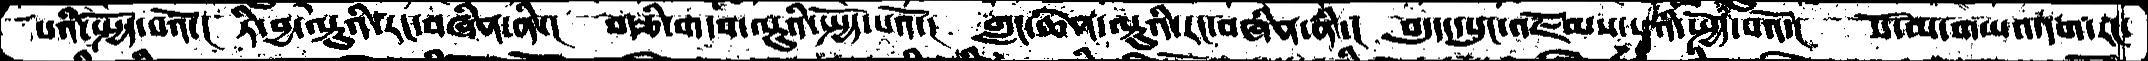པའི་སྤྱོད་པའོ་།  ཏི་བྱ་ལྟུའི་རང་བཞིན་ནི་།  བརྩི་གདབ་ལྟུའི་སྤྱོད་པའོ་།  གླང་ཆེན་ལྟུའི་རང་བཞིན་ནི་།  བདུད་དཔུང་འཇོམས་པའི་སྤྱོད་པའོ་།  སོ་མ་གཡའ་དག་རང་
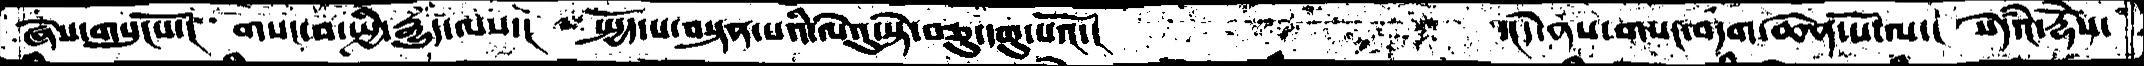ཞེས་གསུངསོ་།   གསང་བ་སྤྱི་རྒྱུད་ལས་།  སྤྱོད་པ་བསྟན་པའི་ལེའུ་སྟེ་བཅུ་དགུ་པའོ་།         ་།དེ་ནས་གསང་བདག་ཆེན་པོ་ལ་།  སེདའཾ་རྡོེས་
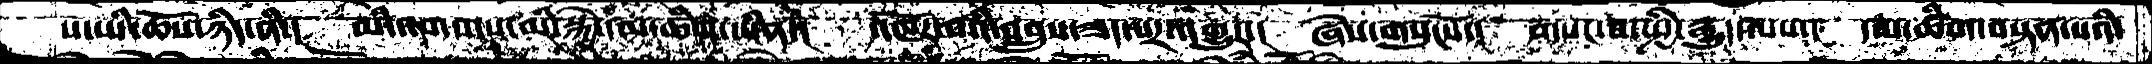པ་ཡི་ཆོས་ཉིད་ནི་། མི་འགགས་མི་སྐྱེ་དམ་ཚིག་ཡིན་། འཁོར་བའི་འབྲུས་ཟད་པར་འགྱུར་།  ཞེས་གསུངསོ་། གསང་བ་སྤྱི་རྒྱུད་ལས་། དམ་ཚིག་བསྟན་པའི་
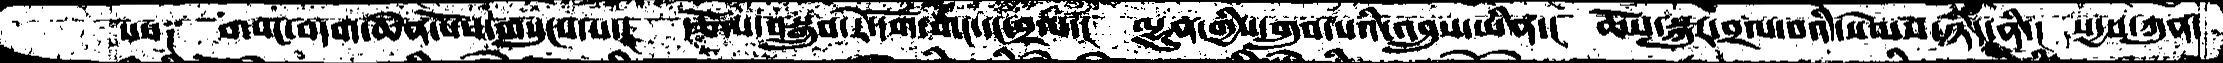པས༑   གསང་བདག་ཆེན་པོས་གསུངས་པ་།  རྩོལ་བསྒྲུབ་རེ་དོག་གང་དང་བྲལ་།  ལྷུན་གྱིས་གྲུབ་པའི་འབྲུས་ཡིན་། ཆོས་སྐུར་བྲལ་བའི་སེམས་ཉིད་ནི་།  སདྱས་ཀུན་
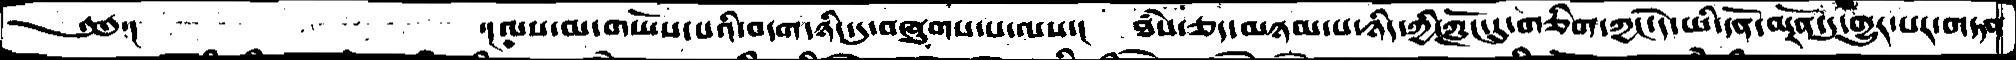༄༅་།       ་།ལས་མ་གཡོས་པའི་བདག་ཉིད་དུ་བཞུགས་པ་ལས་།  ཐཾས་ཅད་མཉམ་པ་ཉིད་ཀྱི་ཀློང་དུ་གཅིག་ཀྱང་དེ་ཡི་དོན་མངོན་དུ་གྱུར་པར་གཏན་
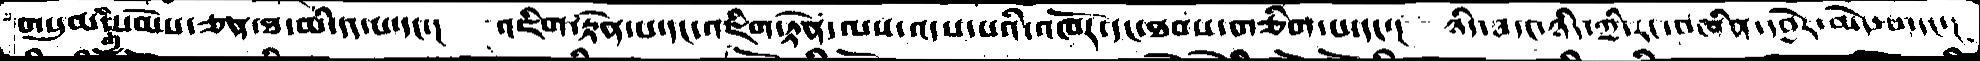གསུམ་གྱི་སེམས་ཅན་ཐ་མི་དད་པ་དང་།  འཇིག་རྟེན་པ་དང་འཇིག་རྟེན་ལས་འདས་པའི་འཁོར་དང་ཐབས་གཅིག་པ་དང་།  ཉིད་ཐ་ང་ཉིད་ཀྱི་རང་བཞིན་དབྱེར་མེད་པ་དང་།
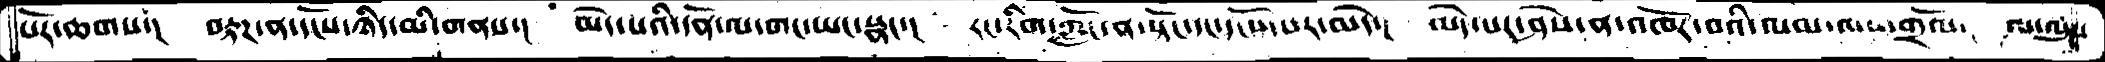པོར་ཆགས་།  བརྟཌ་ན་དངོས་ཉིད་མི་གནས་།  མེད་པའི་དོན་ལ་གང་ཡང་སྣང་།  རང་རིག་ཀློང་ན་སྟོང་དང་དངོས་པར་མེད་།  མེད་པར་ཤེས་ན་འཁོར་བའི་ལམ་ལས་གྲོལ་།  མ་ལུས་
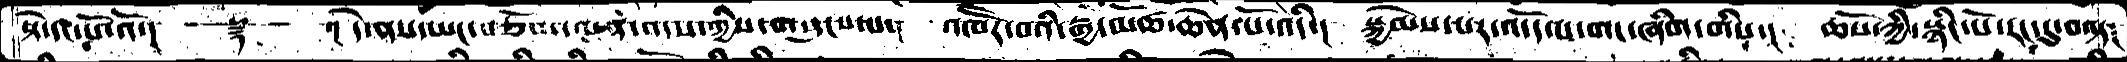སྟེ་དང་པོ་འོ་།  ༈   ་། དེ་ནས་ཡང་བཅོམ་ལྡན་འདས་ཀྱིས་གསུངས་པ་།  འཁོར་བའི་རྒྱ་མཚོ་ཆེན་པོ་འདི་།  སྐྱེམས་པར་འདོད་པ་གང་ཞིག་གིས་།  ཆོས་ཀྱི་སྙིང་པོ་རང་དུ་བལྟ༴
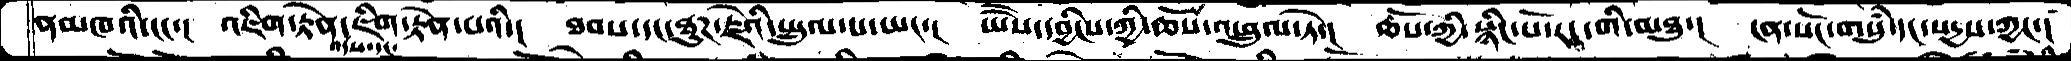ནམཁའི་ངང་།  འཇིག་རྟེན་འདས་དང་ཇིག་རྟེན་པའི་།  ཐབས་དང་ཐུཌ་རྗེའི་སྤྲུལ་པ་ཡང་།  ཡཻས་དབྱིངས་ཀྱི་ཆོས་འཕྲུལ་ཏེ་།  ཆོས་ཀྱི་སྙིང་པོ་རང་གི་མཐུ་།  ངན་སོང་གསུཾ་དང་སདྱས་ཀྱང་།
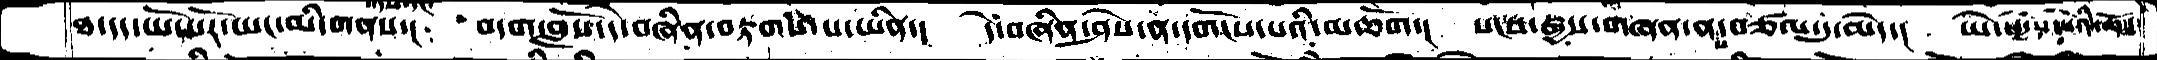ཐ་དད་སོ་སོར་ཡང་མི་གནས་།  བདག་བློས་དེ་བཞིན་བརྟགས་པ་ཡིན་།  དེ་བཞིན་ཤེས་ན་དགོངས་པའི་མཆོག་།  སངས་རྒྱས་གཞན་ནས་བཙལ་དུ་མེད་།  ཡེ་སདྱས་པའི་ཆོས་
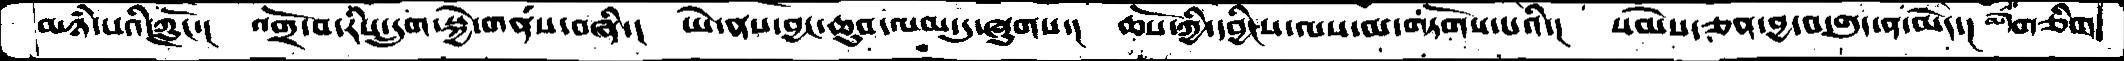མཉཾ་པའི་ཀློང་།  འགྲོ་བ་རིས་དྲུག་སྐྱེ་གནས་བཞི་།  ཡེ་ནས་བྱང་ཆུབ་ལམ་དུ་ཞུགས་།  ཆོས་ཀྱི་དབྱིངས་ལས་མ་གཏོགས་པའི་།  སེམས་ཅན་བྱ་བ་གུད་ན་མེད་།  མེ་གཅིག
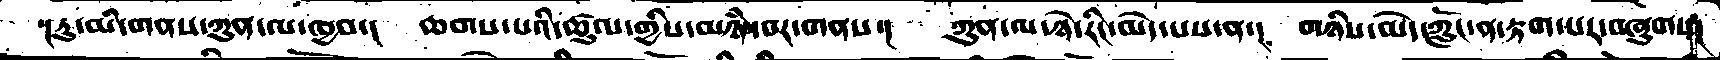་།ཏུ་མི་གནས་ཀུན་ལ་ཁྱབ་།  ཆགས་པའི་ཚུལ་གྱིས་མཉཾ་བར་གནས་།  ཀུན་ལ་ཉེ་རིང་མེད་པས་ན་། གཉིས་མེད་ཀློང་ན་རྟག་པར་བཞུགས་།
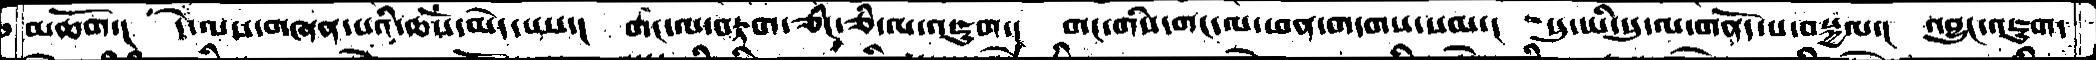མཆོག་།  དེ་ལས་གཞན་པའི་ཆོས་མེད་པས་།  གང་ལ་བརྟག་ཅིང་ཅི་ལ་འཇུག་།  གང་གིས་གང་ལ་ཕན་གདགས་སམ་།  སུ་ཡི་སུ་ལ་གནོད་པ་བསྐྱལ་། འབྱུང་འཇུག་
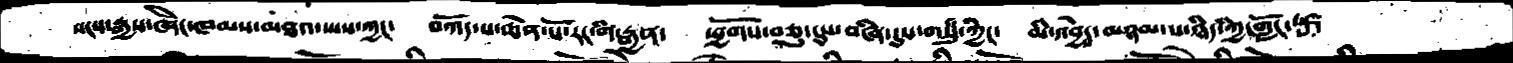སངས་རྒྱས་ཞིང་ཁམས་མཐའ་ཡས་ཀྱང་  བཀོད་པ་ཆེན་པོ་རང་གི་རྒྱན་  ཕྱོགས་བཅུ་དུས་བཞི་དུས་གསུཾ་ཀྱི་། མི་འབྱེད་མཉམ་པ་ཉིད་ཀྱི་གློང་
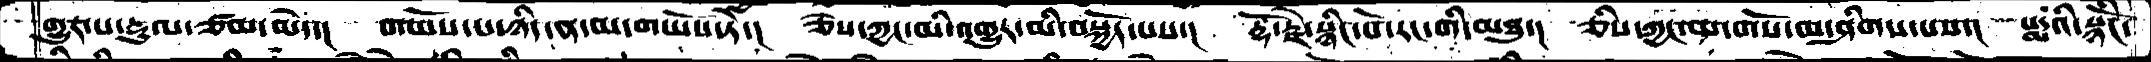གྱུར་པ་རྡུལ་ཙམ་མེད་།  གཡོས་པ་ཉིད་ན་མ་གཡོས་ཏེ་།  ཅེས་ཀྱང་མི་འགྱུར་མི་བསྐྱོད་པས་།  རྡོ་རྗེ་སྙིང་པོ་རང་གི་མཐུ་། ཅིས་ཀྱང་མ་གོས་མ་ཤིགས་པས་། པདྨ་སྙིངོ་
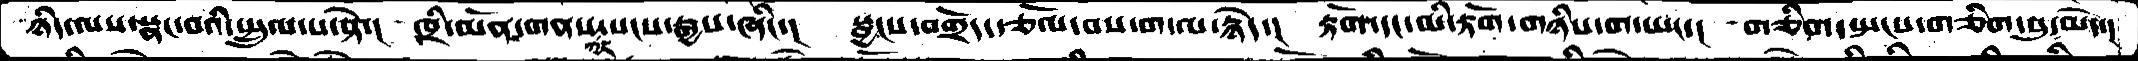ཉིད་ལས་སྣང་བའི་སྤྲུལ་པ་སྟེ་།  ཁྲི་མོན་གནས་ཀྱང་སངས་རྒྱས་ཞིང་། སྦྱངས་བགྲོད་རྩོལ་བས་ག་ལ་རྙེད་།  རྟོག་དང་མི་རྟོག་གཉིས་ག་ཡང་།  གཅིག་སྤངས་གཅིག་པུ་མེད་།
